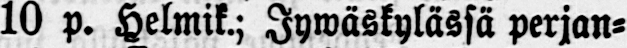10 p. Helmik.; Jywäskylässä perjan-
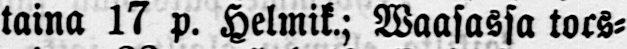taina 17 p. Helmik.; Wassassa tors-
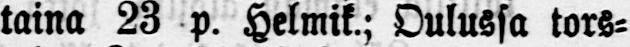taina 23 p. Helmik.; Oulussa tors-
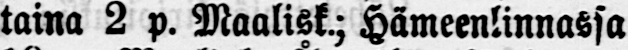taina 2 p. Maalisk.; Hämeenlinnassa
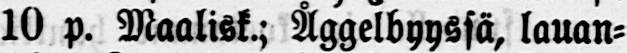10 p. Maalisk.; Åggelbyyssä, lauan-
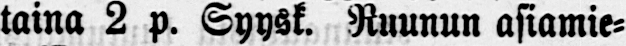taina 2 p. Syysk. Ruunun asiamie-
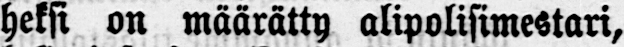heksi on määrätty alipolisimestari,
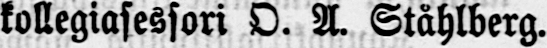kollegiasessori O. A. Ståhlberg.
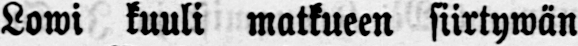Lowi kuuli matkueen siirtywän
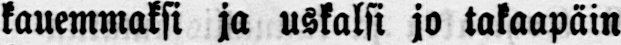kauemmaksi ja uskalsi jo takaapäin
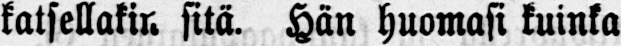katsellakin sitä. Hän huomasi kuinka
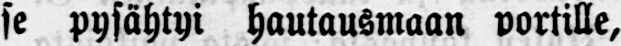se pysähtyi hautausmaan portille,
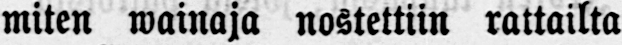miten wainaja nostettiin rattailta
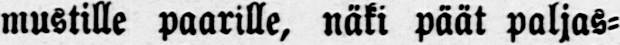mustille paarille, näki päät paljas-
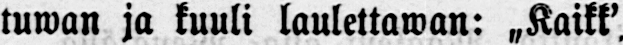tuwan ja kuuli lauleltawan: „Kaikk’.
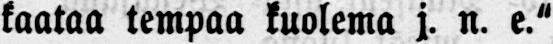kaataa tempaa kuolema j. n. e."
